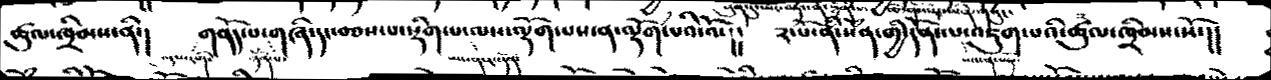ཚུལ་ཁྲིམས་ནི་།   གནོད་པ་གཞི་དང་བཅས་པ་སྡིག་པ་ལས་ལྡོག་པས་ན་ལྡོག་པའི་འོ་།།  ༢་པོ་ནི་སེཾན་གྱི་དོན་ལ་འཇུག་པའི་ཚུལ་ཁྲིམས་སོ་།།
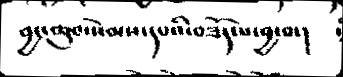བྱང་ཆུབ་སེམས་དཔའི་བཟོད་པ་བྱ་བ་།
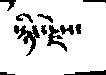སྙིང་རྗེས་
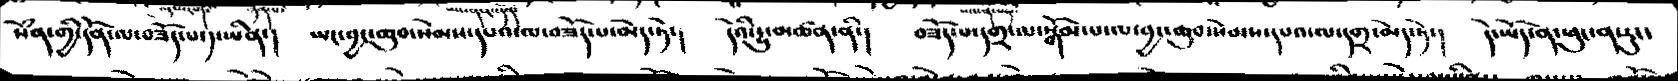སེཾན་གྱི་དོན་ལ་བཟོད་པ་༡་ཡིན་།  ཡང་བྱང་ཆུབ་སེམས་དཔའ་ལ་བཟོད་པ་མེད་ཏེ་།  དེའི་དྱུ་མཚན་ནི་།  བཟོད་པ་དགྲ་ལ་སྒོམ་པ་ལ་བྱང་ཆུབ་སེམས་དཔའ་ལ་དགྲ་མེད་ཏེ་།   དེ་ཡོད་ན་ཕུང་ན་རུང་
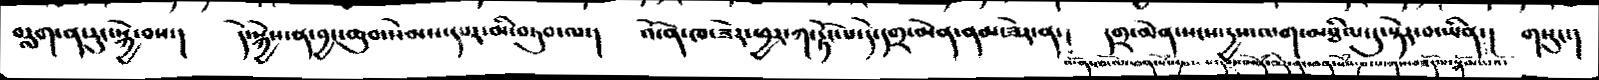བརླག་ན་རུང་སྐྱེ་བས་།  དེ་སྐྱེས་ན་བྱང་ཆུབ་སེམས་དཔར་མི་བཏུབ་ལ་།    འོ་ན་ཁ་ཟེར་ཕྱར་ཀ་རྟོང་པ་དེ་དགྲ་མེན་ནམ་ཟེར་ན་།  དགྲ་མེན་སངས་དྱས་ལག་མཐིལ་དུ་སྟེར་བ་ཡིན་།  གསུང་།
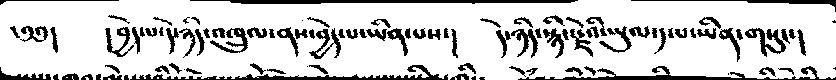༄༅།      །བྱེད་པ་དེ་ཉིད་འཁྲུལ་ནས་བྱེད་པ་ཡིན་པས་།    དེ་ཉིད་སྙིང་རྗེའི་ཡུལ་༡་པ་ཡིན་གསུང་།
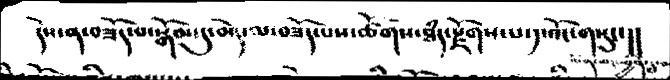དེས་ན་བཟོད་པ་སྒོམ་དུ་མེད་ལ་བཟོད་པས་ཚོགས་ཐཾད་རྫོགས་པ་༡་འོང་གསུང་།།
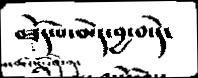བཟོད་པ་་མེད་བྱ་བ་དེ་
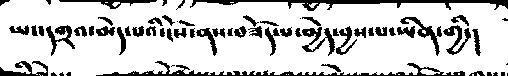ཡང་དགྲའ་མེད་པའི་ངོས་ནས་བཟོད་པ་མྱེད་བྱས་པ་ཡིན་གྱི་།
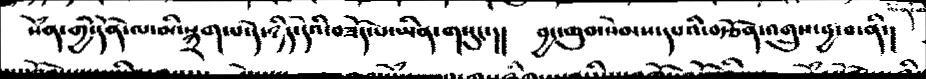སེཾན་གྱི་དོན་ལ་མི་སྐྲག་པ་དེ་ཉིད་དེའི་བཟོད་པ་ཡིན་གསུང་།།   བྱང་ཆུབ་སེམས་དཔའི་བརྩོན་འགྲུས་བྱ་བ་ནི་།
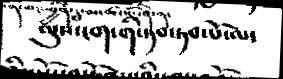ལུས་ངག་གི་ཏབ་ཏབ་པོ་ལ་
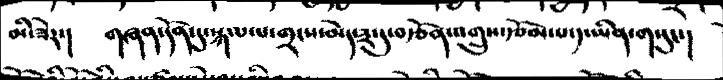མ་ཟེར་།   གཞན་དོན་དུ་སྐལ་པ་གྲངས་མེད་༣་དུ་བརྩོན་འགྲུས་རྩོམ་པ་༡་ཡིན་གསུང་།
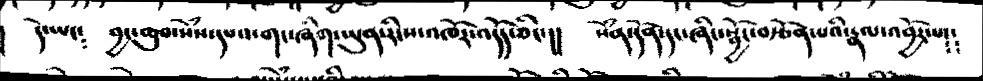།  དེ་ཡང༴   བྱང་ཆུབ་སེཾས་དཔའ་གང་ཞིག་ཡུན་རིངས་འཁོར་འདོད་ཅིང་།།  སེཾན་དོན་དང་ཞིང་སྦྱོང་བརྩོན་པའི་རྣལ་འབྱོར་པ༴༴
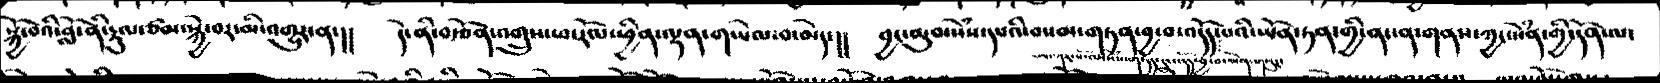སྐྱེ་བོའི་བློ་ནི་རྡུལ་ཙམ་སྐྱེ་བར་མི་འགྱུར་ན་།།  དེ་ནི་བརྩོན་འགྲུས་ཕ་རོལ་ཕྱིན་ལྷན་གཡེལ་བ་མེད་།།  བྱང་ཆུབ་སེཾས་དཔའི་བསམ་གཏན་བྱ་བ་འདོད་པའི་ཡོན་ཏན་གྱི་ནང་ན་གནས་ཀྱང་སེཾན་གྱི་དོན་ལ་
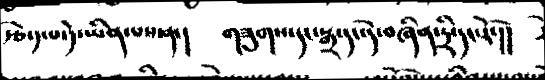རྩེ་༡་པ་དེ་ཡིན་པས་ན་།  གཟུགས་དང་སྒྲ་དང་དེ་བཞིན་དྲི་དང་རོ་།།
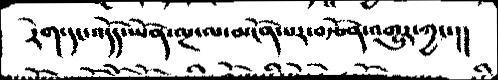རེག་དང་འདོད་ཡོན་ལྔ་ལ་མངོན་པར་བརྩོན་འགྱུར་ཀྱང་།།
